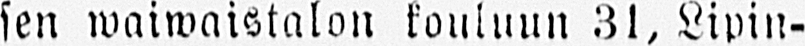sen waiwaistalon kouluun 31, Lipin-
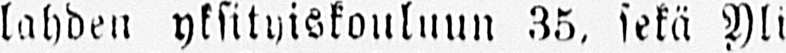lahden yksityiskouluun 35, sekä Yli-
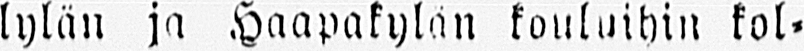lylän ja Haapakylän kouluihin kol-
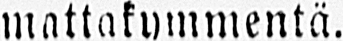mattakymmentä.
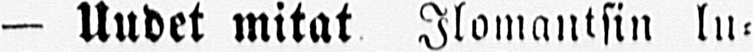— Uudet mitat Ilomantsin lu-
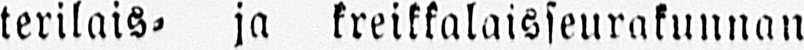terilais- ja kreikkalaisseurakunnan
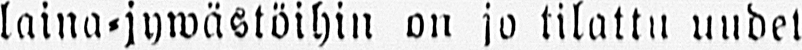laina-jywästöihin on jo tilattu uudet
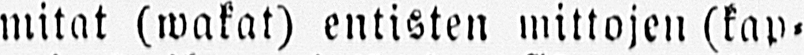mitat (wakat) entisten mittojen (kap-
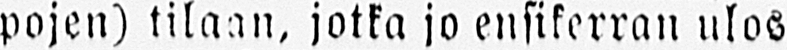pojen) tilaan, jotka jo ensikerran ulos-
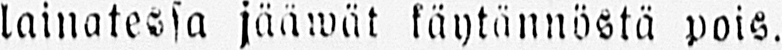lainatessa jääwät käytännöstä pois.
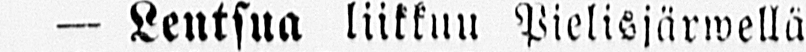— Lentsua liikkuu Pielisjärwellä
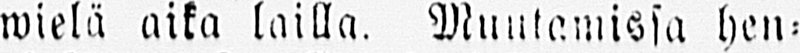wielä aika lailla. Muutamissa hen-
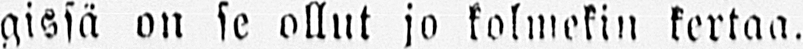gissä on se ollut jo kolmekin kertaa.
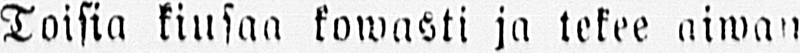Toisia kiusaa kowasti ja tekee aiwan
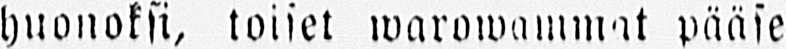huonoksi, toiset warowammat pääse
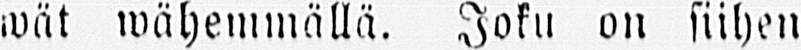wät wähemmällä. Joku on siihen
